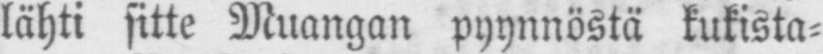lähti sitte Muangan pyynnöstä kukista-
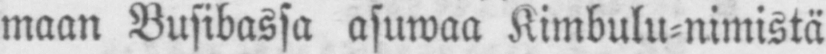maan Busibassa asuwaa Kimbulu-nimistä
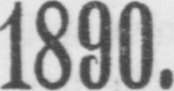1890.
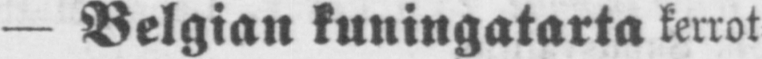— Belgian kuningatarta kerrot-
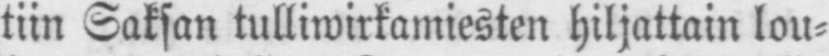tiin Saksan tulliwirkamiesten hiljattain lou-
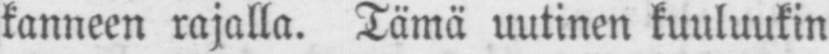kanneen rajalla. Tämä uutinen kuuluukin
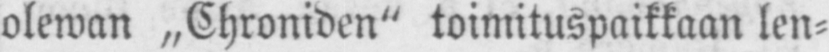olewan „Chroniden" toimituspaikkaan len-
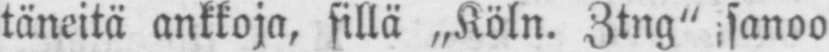täneitä ankkoja, sillä „Köln. Ztng" sanoo
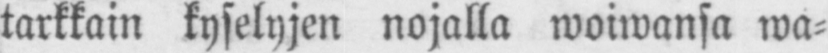tarkkain kyselyjen nojalla woiwansa wa-
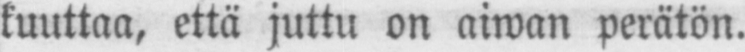kuuttaa, että juttu on aiwan perätön.
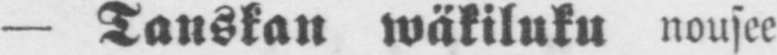— Tanskan wäkiluku nousee
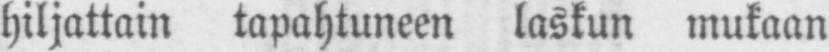hiljattain tapahtuneen laskun mukaan
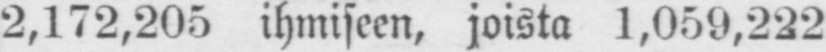2,172,205 ihmiseen, joista 1,059,222
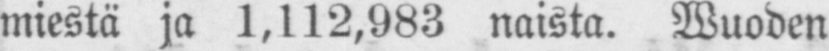miestä ja 1,112,983 naista. Wuoden
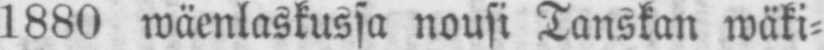1880 wäenlaskussa nousi Tanskan wäki-
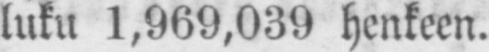luku 1,969,039 henkeen.
